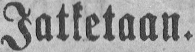Jatketaan.
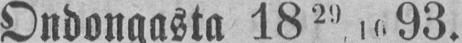Ondongasta 18 29 16 93.
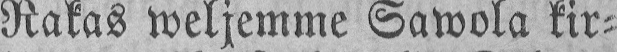Rakas weljemme Sawola kir-
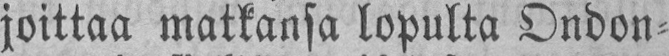joittaa matkansa lopulta Ondon-
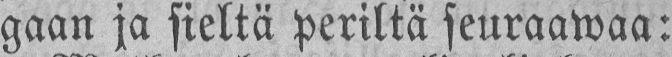gaan ja sieltä periltä seuraawaa:
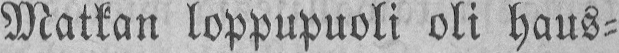Matkan loppupuoli oli haus-
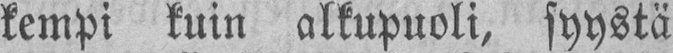kempi kuin alkupuoli, syystä
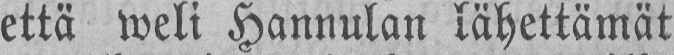että weli Hannulan lähettämät
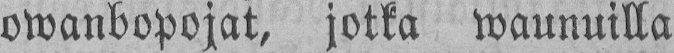owanbopojat, jotka waunuilla
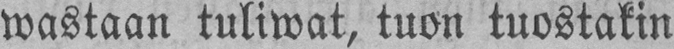wastaan tuliwat, tuon tuostakin
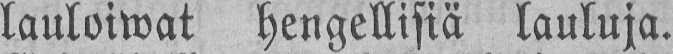lauloiwat hengellisiä lauluja.
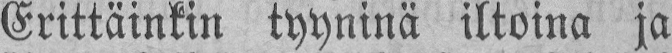Erittäinkin tyyninä iltoina ja
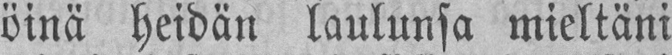öinä heidän laulunsa mieltäni
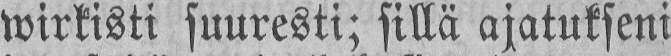wirkisti suuresti; sillä ajatukseni
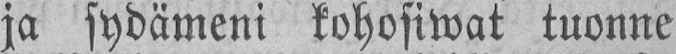ja sydämeni kohosiwat tuonne
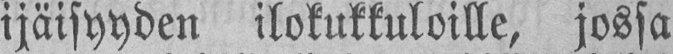ijäisyyden ilokukkuloille, jossa
